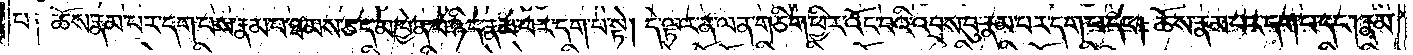པ༑ ཆོས་རྣམ་པར་དག་པས་རྣམ་པ་ཐམས་ཅད་མཁྱེན་པ་ཉིད་རྣམ་པར་དག་པ་སྟེ། དེ་ལྟར་ན་ལན་གཅིག་ཕྱིར་འོང་བའི་འབྲས་བུ་རྣམ་པར་དག་པ་དང༌། ཆོས་རྣམ་པར་དག་པ་དང༌། རྣམ་
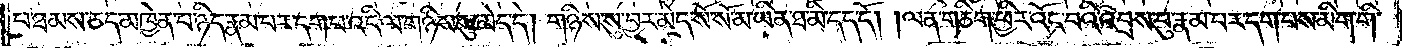པ་ཐམས་ཅད་མཁྱེན་པ་ཉིད་རྣམ་པར་དག་པ་འདི་ལ་གཉིས་སུ་མེད་དེ། གཉིས་སུ་བྱར་མེད་སོ་སོ་མ་ཡིན་ཐ་མི་དད་དོ། །ལན་གཅིག་ཕྱིར་འོང་བའི་འབྲས་བུ་རྣམ་པར་དག་པས་མིག་གི་
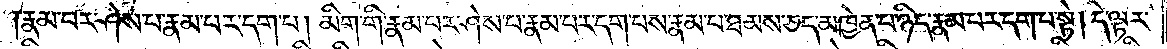རྣམ་པར་ཤེས་པ་རྣམ་པར་དག་པ། མིག་གི་རྣམ་པར་ཤེས་པ་རྣམ་པར་དག་པས་རྣམ་པ་ཐམས་ཅད་མཁྱེན་པ་ཉིད་རྣམ་པར་དག་པ་སྟེ། དེ་ལྟར་
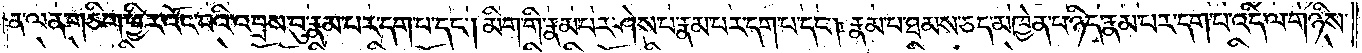ན་ལན་གཅིག་ཕྱིར་འོང་བའི་འབྲས་བུ་རྣམ་པར་དག་པ་དང༌། མིག་གི་རྣམ་པར་ཤེས་པ་རྣམ་པར་དག་པ་དང༌། རྣམ་པ་ཐམས་ཅད་མཁྱེན་པ་ཉིད་རྣམ་པར་དག་པ་འདི་ལ་གཉིས་
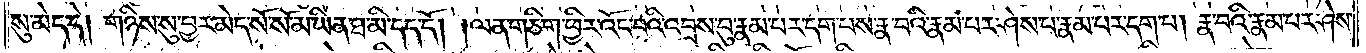སུ་མེད་དེ། གཉིས་སུ་བྱར་མེད་སོ་སོ་མ་ཡིན་ཐ་མི་དད་དོ། །ལན་གཅིག་ཕྱིར་འོང་བའི་འབྲས་བུ་རྣམ་པར་དག་པས་རྣ་བའི་རྣམ་པའི་ཤེས་པ་རྣམ་པར་དག་པ། རྣ་བའི་རྣམ་པར་ཤེས་
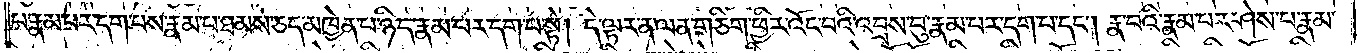པ་རྣམ་པར་དག་པས་རྣམ་པ་ཐམས་ཅད་མཁྱེན་པ་ཉིད་རྣམ་པར་དག་པ་སྟེ། དེ་ལྟར་ན་ལན་གཅིག་ཕྱིར་འོང་བའི་འབྲས་བུ་རྣམ་པར་དག་པ་དང༌། རྣ་བའི་རྣམ་པར་ཤེས་པ་རྣམ་
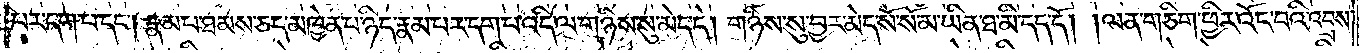པར་དག་པ་དང༌། རྣམ་པ་ཐམས་ཅད་མཁྱེན་པ་ཉིད་རྣམ་པར་དག་པ་འདི་ལ་གཉིས་སུ་མེད་དེ། གཉིས་སུ་བྱར་མེད་སོ་སོ་མ་ཡིན་ཐ་མི་དད་དོ། །ལན་གཅིག་ཕྱིར་འོང་བའི་འབྲས་
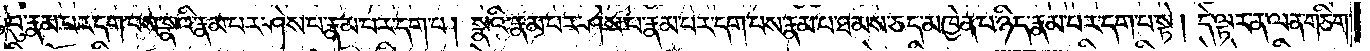བུ་རྣམ་པར་དག་པས་སྣའི་རྣམ་པར་ཤེས་པ་རྣམ་པར་དག་པ། སྣའི་རྣམ་པར་ཤེས་པ་རྣམ་པར་དག་པས་རྣམ་པ་ཐམས་ཅད་མཁྱེན་པ་ཉིད་རྣམ་པར་དག་པ་སྟེ། དེ་ལྟར་ན་ལན་གཅིག་
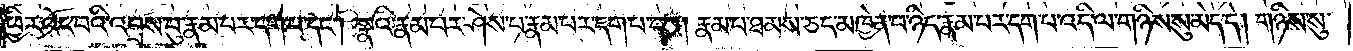ཕྱིར་འོང་བའི་འབྲས་བུ་རྣམ་པར་དག་པ་དང༌། སྣའི་རྣམ་པར་ཤེས་པ་རྣམ་པར་དག་པ་དང༌། རྣམ་པ་ཐམས་ཅད་མཁྱེན་པ་ཉིད་རྣམ་པར་དག་པ་འདི་ལ་གཉིས་སུ་མེད་དེ། གཉིས་སུ་
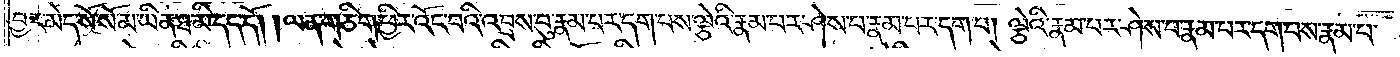བྱར་མེད་སོ་སོ་མ་ཡིན་ཐ་མི་དད་དོ། །ལན་གཅིག་ཕྱིར་འོང་བའི་འབྲས་བུ་རྣམ་པར་དག་པས་ལྕེའི་རྣམ་པར་ཤེས་པ་རྣམ་པར་དག་པ། ལྕེའི་རྣམ་པར་ཤེས་པ་རྣམ་པར་དག་པས་རྣམ་པ་
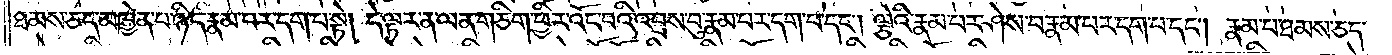ཐམས་ཅད་མཁྱེན་པ་ཉིད་རྣམ་པར་དག་པ་སྟེ། དེ་ལྟར་ན་ལན་གཅིག་ཕྱིར་འོང་བའི་འབྲས་བུ་རྣམ་པར་དག་པ་དང༌། ལྕེའི་རྣམ་པར་ཤེས་པ་རྣམ་པར་དག་པ་དང༌། རྣམ་པ་ཐམས་ཅད་
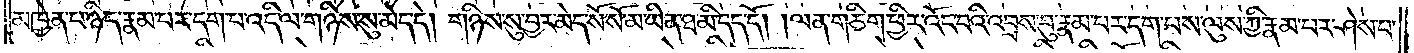མཁྱེན་པ་ཉིད་རྣམ་པར་དག་པ་འདི་ལ་གཉིས་སུ་མེད་དེ། གཉིས་སུ་བྱར་མེད་སོ་སོ་མ་ཡིན་ཐ་མི་དད་དོ། །ལན་གཅིག་ཕྱིར་འོང་བའི་འབྲས་བུ་རྣམ་པར་དག་པས་ལུས་ཀྱི་རྣམ་པར་ཤེས་པ་
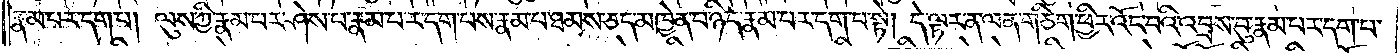རྣམ་པར་དག་པ། ལུས་ཀྱི་རྣམ་པར་ཤེས་པ་རྣམ་པར་དག་པས་རྣམ་པ་ཐམས་ཅད་མཁྱེན་པ་ཉིད་རྣམ་པར་དག་པ་སྟེ། དེ་ལྟར་ན་ལན་གཅིག་ཕྱིར་འོང་བའི་འབྲས་བུ་རྣམ་པར་དག་པ་
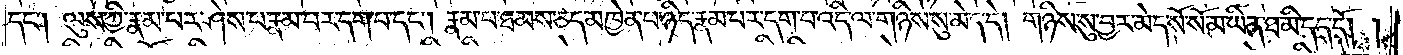དང༌། ལུས་ཀྱི་རྣམ་པར་ཤེས་པ་རྣམ་པར་དག་པ་དང༌། རྣམ་པ་ཐམས་ཅད་མཁྱེན་པ་ཉིད་རྣམ་པར་དག་པ་འདི་ལ་གཉིས་སུ་མེད་དེ། གཉིས་སུ་བྱར་མེད་སོ་སོ་མ་ཡིན་ཐ་མི་དད་དོ། །
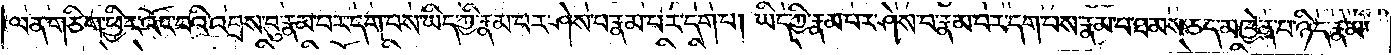ལན་གཅིག་ཕྱིར་འོང་བའི་འབྲས་བུ་རྣམ་པར་དག་པས་ཡིད་ཀྱི་རྣམ་པར་ཤེས་པ་རྣམ་པར་དག་པ། ཡིད་ཀྱི་རྣམ་པར་ཤེས་པ་རྣམ་པར་དག་པས་རྣམ་པ་ཐམས་ཅད་མཁྱེན་པ་ཉིད་རྣམ་
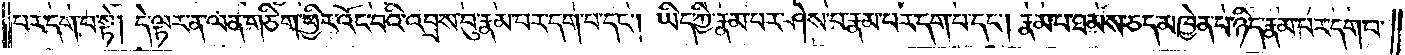པར་དག་པ་སྟེ། དེ་ལྟར་ན་ལན་གཅིག་ཕྱིར་འོང་བའི་འབྲས་བུ་རྣམ་པར་དག་པ་དང༌། ཡིད་ཀྱི་རྣམ་པར་ཤེས་པ་རྣམ་པར་དག་པ་དང༌། རྣམ་པ་ཐམས་ཅད་མཁྱེན་པ་ཉིད་རྣམ་པར་དག་པ་
